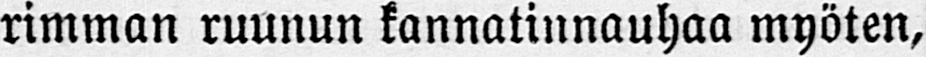rimman ruunun kannatinnauhaa myöten,
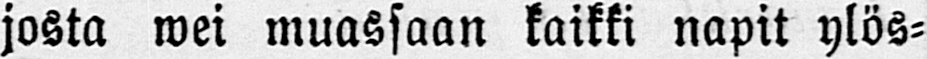josta wei muassaan kaikki napit ylös-
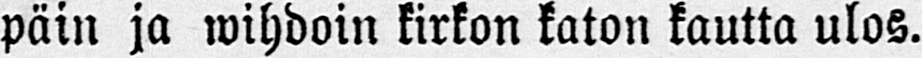päin ja wihdoin kirkon katon kautta ulos.
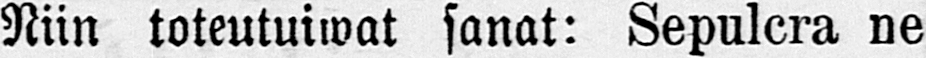Niin toteutuiwat sanat: Sepulcra ne
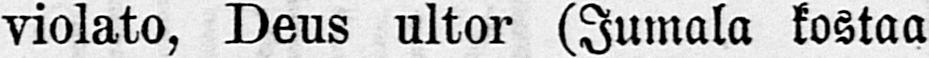violato, Deus ultor (Jumala kostaa
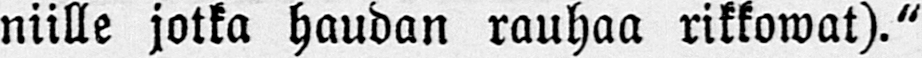niille jotka haudan rauhaa rikkowat)."
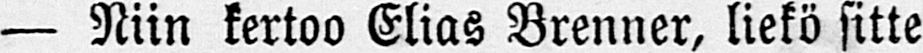— Niin kertoo Elias Brenner, liekö sitte
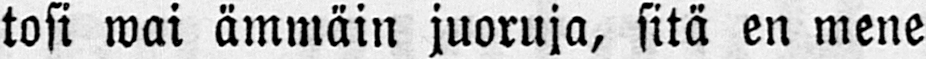tosi wai ämmäin juoruja, sitä en mene
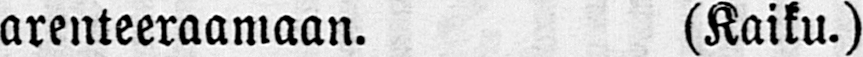arenteeraamaan. (Kaiku.)
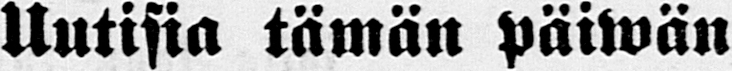Uutisia tämän Päiwän
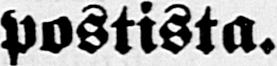postista.
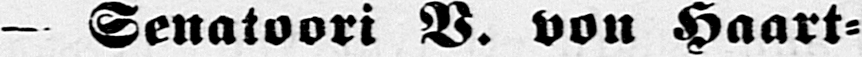— Senatoori V. von Haart-
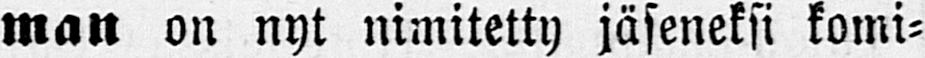man on nyt nimitetty jäseneksi komi-
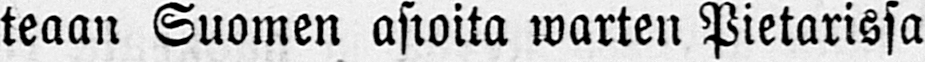teaan Suomen asioita warten Pietarissa
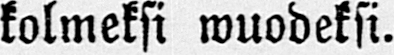kolmeksi wuodeksi.
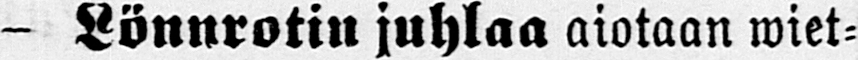— Lönnrotin juhlaa aiotaan wiet-
